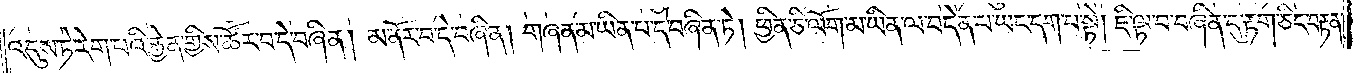འདུས་ཏེ་རེག་པའི་རྐྱེན་གྱིས་ཚོར་བ་དེ་བཞིན། མ་ནོར་བ་དེ་བཞིན། གཞན་མ་ཡིན་པ་དེ་བཞིན་ཏེ། ཕྱིན་ཅི་ལོག་མ་ཡིན་ལ་བདེན་པ་ཡང་དག་པ་སྟེ། ཇི་ལྟ་བ་བཞིན་དུ་རྟག་ཅིང་བརྟན་
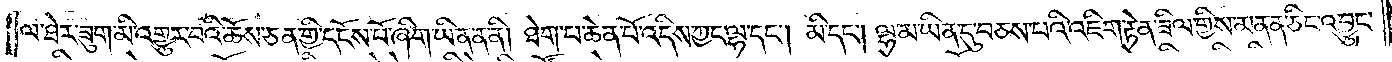ལ་ཐེར་ཟུག་མི་འགྱུར་བའི་ཆོས་ཅན་གྱི་དངོས་པོ་ཞིག་ཡིན་ན་ནི། ཐེག་པ་ཆེན་པོ་འདིས་ཀྱང་ལྷ་དང༌། མི་དང༌། ལྷ་མ་ཡིན་དུ་བཅས་པའི་འཇིག་རྟེན་ཟིལ་གྱིས་མནན་ཅིང་འབྱུང་
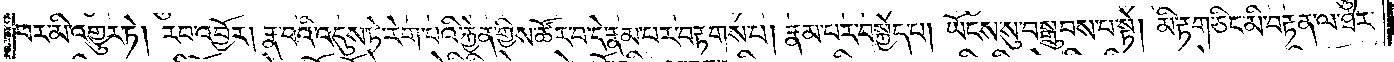བར་མི་འགྱུར་ཏེ། རབ་འབྱོར། རྣ་བའི་འདུས་ཏེ་རེག་པའི་རྐྱེན་གྱིས་ཚོར་བ་དེ་རྣམ་པར་བརྟགས་པ། རྣམ་པར་བསྐྱེད་པ། ཡོངས་སུ་བསྒྲུབས་པ་སྟེ། མི་རྟག་ཅིང་མི་བརྟན་ལ་ཐེར་
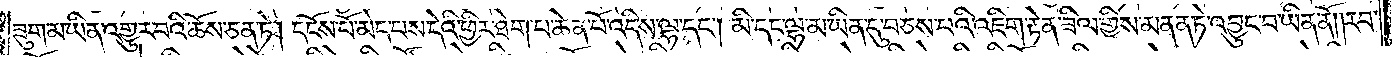ཟུག་མ་ཡིན་འགྱུར་བའི་ཆོས་ཅན་ཏེ། དངོས་པོ་མེད་པས་དེའི་ཕྱིར་ཐེག་པ་ཆེན་པོ་འདིས་ལྷ་དང༌། མི་དང་ལྷ་མ་ཡིན་དུ་བཅས་པའི་འཇིག་རྟེན་ཟིལ་གྱིས་མནན་ཏེ་འབྱུང་བ་ཡིན་ནོ། །རབ་
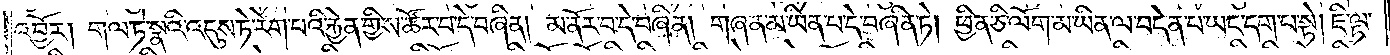འབྱོར། གལ་ཏེ་སྣའི་འདུས་ཏེ་རེག་པའི་རྐྱེན་གྱིས་ཚོར་བ་དེ་བཞིན། མ་ནོར་བ་དེ་བཞིན། གཞན་མ་ཡིན་པ་དེ་བཞིན་ཏེ། ཕྱིན་ཅི་ལོག་མ་ཡིན་ལ་བདེན་པ་ཡང་དག་པ་སྟེ། ཇི་ལྟ་
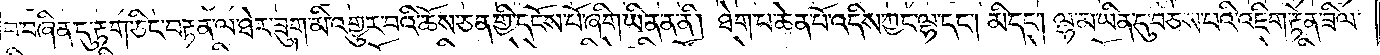བ་བཞིན་དུ་རྟག་ཅིང་བརྟན་ལ་ཐེར་ཟུག་མི་འགྱུར་བའི་ཆོས་ཅན་གྱི་དངོས་པོ་ཞིག་ཡིན་ན་ནི། ཐེག་པ་ཆེན་པོ་འདིས་ཀྱང་ལྷ་དང༌། མི་དང༌། ལྷ་མ་ཡིན་དུ་བཅས་པའི་འཇིག་རྟེན་ཟིལ་
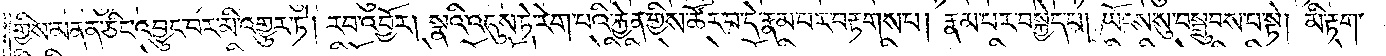གྱིས་མནན་ཅིང་འབྱུང་བར་མི་འགྱུར་ཏེ། རབ་འབྱོར། སྣའི་འདུས་ཏེ་རེག་པའི་རྐྱེན་གྱིས་ཚོར་བ་དེ་རྣམ་པར་བརྟགས་པ། རྣམ་པར་བསྐྱེད་པ། ཡོངས་སུ་བསྒྲུབས་པ་སྟེ། མི་རྟག་
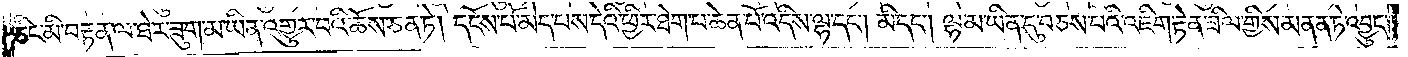ཅིང་མི་བརྟན་ལ་ཐེར་ཟུག་མ་ཡིན་འགྱུར་བའི་ཆོས་ཅན་ཏེ། དངོས་པོ་མེད་པས་དེའི་ཕྱིར་ཐེག་པ་ཆེན་པོ་འདིས་ལྷ་དང༌། མི་དང༌། ལྷ་མ་ཡིན་དུ་བཅས་པའི་འཇིག་རྟེན་ཟིལ་གྱིས་མནན་ཏེ་འབྱུང་
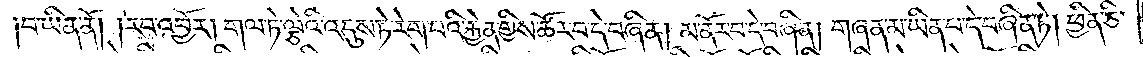བ་ཡིན་ནོ། །རབ་འབྱོར། གལ་ཏེ་ལྕེའི་འདུས་ཏེ་རེག་པའི་རྐྱེན་གྱིས་ཚོར་བ་དེ་བཞིན། མ་ནོར་བ་དེ་བཞིན། གཞན་མ་ཡིན་པ་དེ་བཞིན་ཏེ། ཕྱིན་ཅི་
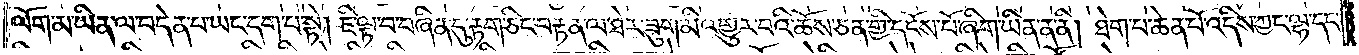ལོག་མ་ཡིན་ལ་བདེན་པ་ཡང་དག་པ་སྟེ། ཇི་ལྟ་བ་བཞིན་དུ་རྟག་ཅིང་བརྟན་ལ་ཐེར་ཟུག་མི་འགྱུར་བའི་ཆོས་ཅན་གྱི་དངོས་པོ་ཞིག་ཡིན་ན་ནི། ཐེག་པ་ཆེན་པོ་འདིས་ཀྱང་ལྷ་དང་
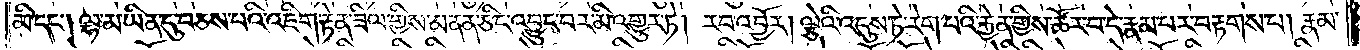མི་དང༌། ལྷ་མ་ཡིན་དུ་བཅས་པའི་འཇིག་རྟེན་ཟིལ་གྱིས་མནན་ཅིང་འབྱུང་བར་མི་འགྱུར་ཏེ། རབ་འབྱོར། ལྕེའི་འདུས་ཏེ་རེག་པའི་རྐྱེན་གྱིས་ཚོར་བ་དེ་རྣམ་པར་བརྟགས་པ། རྣམ་
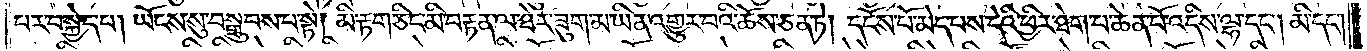པར་བསྐྱེད་པ། ཡོངས་སུ་བསྒྲུབས་པ་སྟེ། མི་རྟག་ཅིང་མི་བརྟན་ལ་ཐེར་ཟུག་མ་ཡིན་འགྱུར་བའི་ཆོས་ཅན་ཏེ། དངོས་པོ་མེད་པས་དེའི་ཕྱིར་ཐེག་པ་ཆེན་པོ་འདིས་ལྷ་དང༌། མི་དང༌།
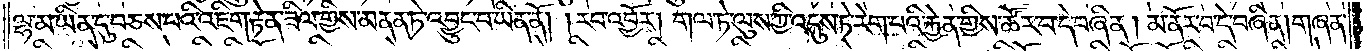ལྷ་མ་ཡིན་དུ་བཅས་པའི་འཇིག་རྟེན་ཟིལ་གྱིས་མནན་ཏེ་འབྱུང་བ་ཡིན་ནོ། །རབ་འབྱོར། གལ་ཏེ་ལུས་ཀྱི་འདུས་ཏེ་རེག་པའི་རྐྱེན་གྱིས་ཚོར་བ་དེ་བཞིན། མ་ནོར་བ་དེ་བཞིན། གཞན་
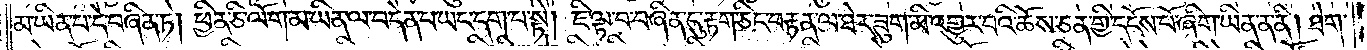མ་ཡིན་པ་དེ་བཞིན་ཏེ། ཕྱིན་ཅི་ལོག་མ་ཡིན་ལ་བདེན་པ་ཡང་དག་པ་སྟེ། ཇི་ལྟ་བ་བཞིན་དུ་རྟག་ཅིང་བརྟན་ལ་ཐེར་ཟུག་མི་འགྱུར་བའི་ཆོས་ཅན་གྱི་དངོས་པོ་ཞིག་ཡིན་ན་ནི། ཐེག་
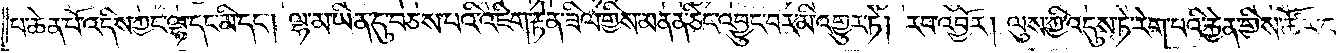པ་ཆེན་པོ་འདིས་ཀྱང་ལྷ་དང་མི་དང༌། ལྷ་མ་ཡིན་དུ་བཅས་པའི་འཇིག་རྟེན་ཟིལ་གྱིས་མནན་ཅིང་འབྱུང་བར་མི་འགྱུར་ཏེ། རབ་འབྱོར། ལུས་ཀྱི་འདུས་ཏེ་རེག་པའི་རྐྱེན་གྱིས་ཚོར་བ་
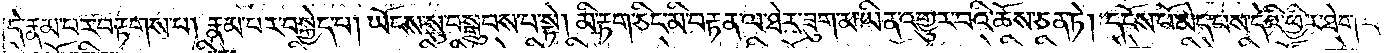དེ་རྣམ་པར་བརྟགས་པ། རྣམ་པར་བསྐྱེད་པ། ཡོངས་སུ་བསྒྲུབས་པ་སྟེ། མི་རྟག་ཅིང་མི་བརྟན་ལ་ཐེར་ཟུག་མ་ཡིན་འགྱུར་བའི་ཆོས་ཅན་ཏེ། དངོས་པོ་མེད་པས་དེའི་ཕྱིར་ཐེག་པ་
